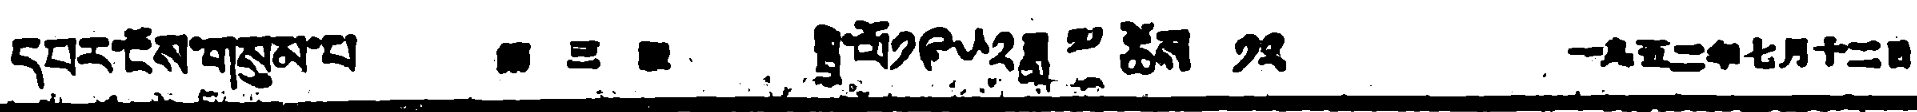དཔར་ངོས་གསུམ་པ 第三版 སྤྱི་ལོ༡༩༥༢ཟླ ༧ ཚེས ༡༢ 一九五二年七月十二日
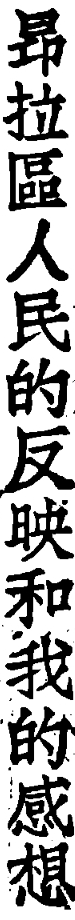昂拉區人民的反映和我的感想
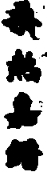桑熱嘉錯
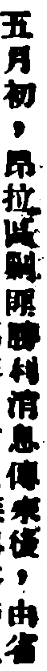五月初，昂拉區剿匪勝利消息傳來後，由省
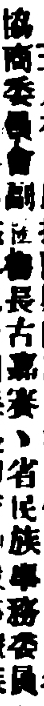協商委員會副祕書長古嘉賽、省民族事務委員
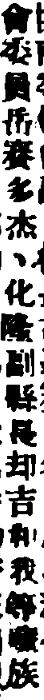會委員岳賽多杰、化隆副縣長却吉和我等藏族
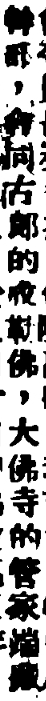幹部，會同古郎的成勒佛，大佛寺的管家端藏
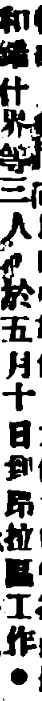和錯什界等三人，於五月十日到昂拉區工作。
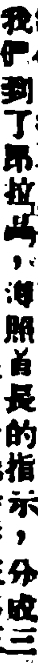我們到了昂拉區，遵照首長的指示，分成三
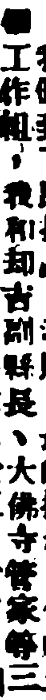個工作組，我和却吉副縣長、大佛寺管家等三
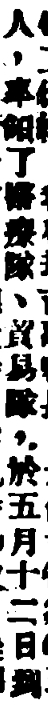人，率領了醫療隊、貿易隊，於五月十二日到
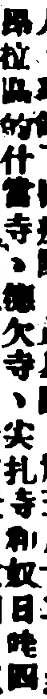昂拉區的什當寺、德欠寺、尖扎寺和奴日哇四
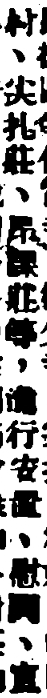村、尖扎莊、昂課莊等，進行安置、慰問、宣
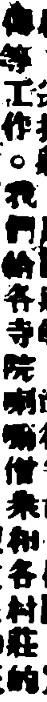傳等工作。我們給各寺院喇嘛僧衆和各村莊的
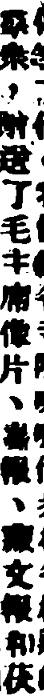羣衆，贈送了毛主席像片、畫報、藏文報和茯
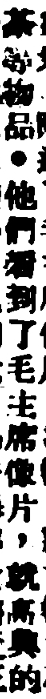茶等物品。他們看到了毛主席像片，就高興的
